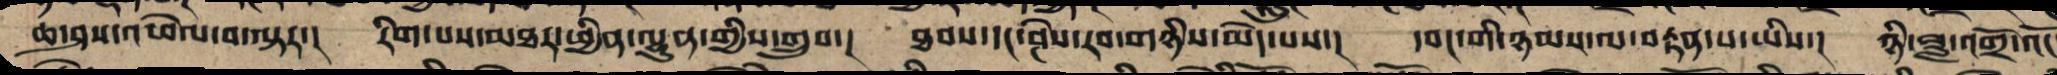ཆ་ཤས་འཕེལ་བ་ལྟར་། རིག་པས་མཐར་ཕྱིན་ལྷུན་གྱིས་གྲུབ་། ཐབས་དང་ཤེས་རབ་གཉིས་མེད་པས། དབང་གི་ཉམས་ལ་བརྟན་པ་ཡིས་། ཉི་ཟླ་འགྲོ་འོང
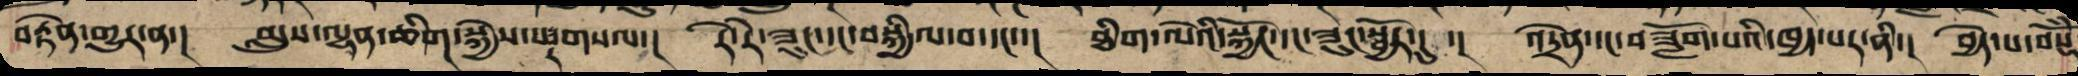བརྟེན་གྱུར་ན་། མླུས་ལྷན་ཅིག་སྐྱེས་པར་གསལ་། རེ་རེ་གཟུང་དང་བསྐྱིལ་བ་དང་་། ཐིག་ལེའི་སྐྱོང་དང་ཟུང་སྦྱོར་དུ་། འདྲེན་དང་བཟློག་པའི་ཁྱད་པར་ནི་། བྱེད་པ་བསྡོཾ
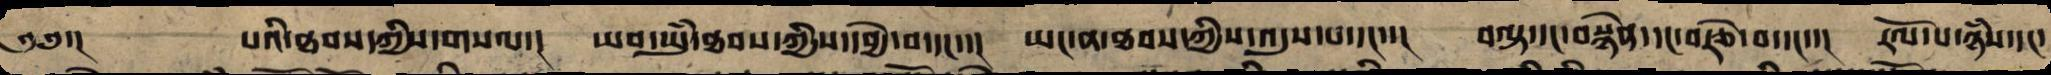༄༅། པའི་ཐབས་ཀྱིས་གསལ་། ཡབ་ཡུཾ་ཐབས་ཀྱི་དབྱེ་བ་དང་་། ཡང་ན་ཐབས་ཀྱིས་འདུས་པ་དང་་། བལྟ་དང་བསྙེན་དང་བརྩེ་བ་དང་་། རོལ་པ་ཉཾས་དང་
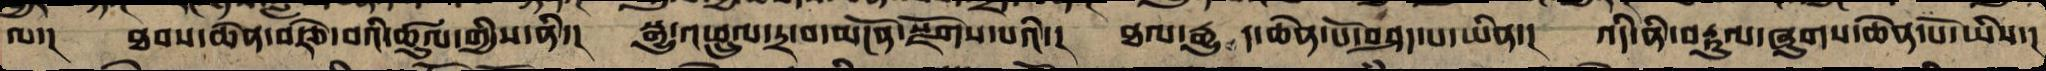ལ་། ཐབས་ཆེན་བརྩེ་བའི་ཚུལ་གྱིས་ནི་། སྒྱུ་འཕྲུལ་དྲ་བ་མངོན་སྫོགས་པའི་། ཐལ་རྒྱུད་ཆེན་པོ་བཤད་པ་ཡིས་། འདི་ནི་བརྟུལ་ཞུགས་ཆེན་པོ་ཡི་།
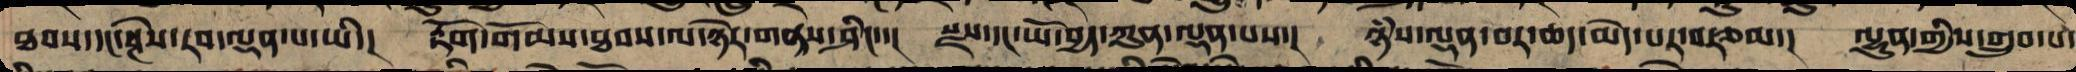ཐབས་དང་ཤེས་རབ་ལྡན་པ་ཡིས་། རྟོགས་གོམས་ཐབས་ལ་ཉེར་གནས་ཤིང་་། སྫས་དང་ཡོ་བྱད་ཀུན་ལྡན་པས་། ཉཾས་ལྡན་བར་ཆད་མེད་པར་བརྩམ་། ལྷུན་གྱིས་གྲུབ་པ་
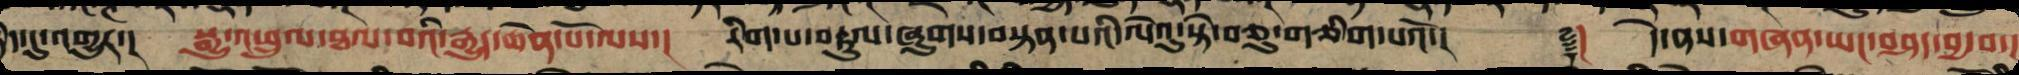ཉིད་དུ་འགྱུར་། སྒྱུ་འཕྲུལ་ཐལ་བའི་རྒྱུད་ཆེན་པོ་ལས་། རིག་པ་བརྟུལ་ཞུགས་བསྟན་པའི་ལེའུ་སྟེ་བཅུ་གཅིག་པའོ་།། ༈། དེ་ནས་གཞན་ཡང་བཤད་བྱ་བ་།
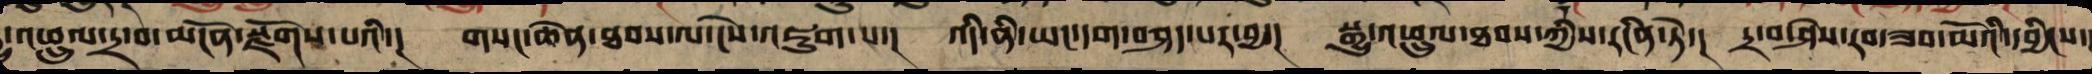སྒྱུ་འཕྲུལ་དྲ་བ་མངོན་སྫོགས་པའི་། གསང་ཆེན་ཐབས་ལ་ངེས་འཇུག་པ་། འདི་ནི་ཡང་དག་བཤད་པར་བྱ་། སྒྱུ་འཕྲུལ་ཐབས་ཀྱི་རངིན་ཏེ་། དྲ་བ་ཤེས་རབ་ཟབ་མོའི་དབྱིངས་
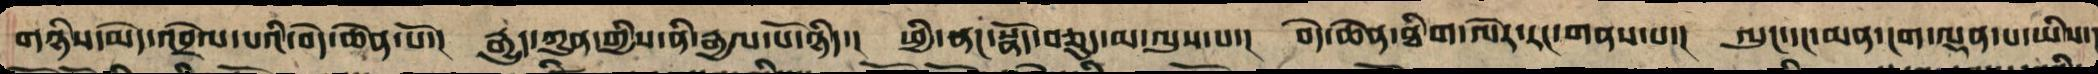གཉིས་མེད་འབྲེལ་བའི་བདེ་ཆེན་པོ་། རྒྱུད་ཀུན་གྱི་ནི་རྒྱལ་པོ་ཉིད་། ཕྱི་ནང་སྣོད་བཅུད་མ་ལུས་པ་། བདེ་ཆེན་ཐིག་ལེར་རང་གནས་པ་། ལུང་དང་མན་ངག་ལྡན་པ་ཡིས་
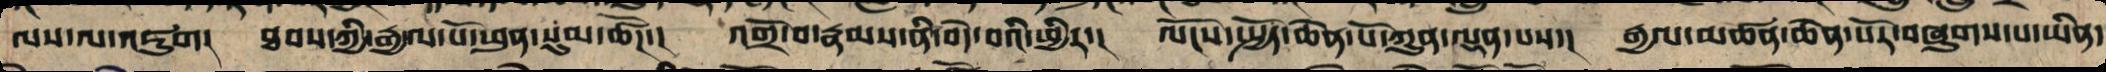ལས་ལ་འཇུག། ཐབས་ཀྱི་བདག་པོ་ཕུན་སུམ་ཚོཌ་། འགྲོ་བ་རྣམས་ནི་བདེ་བའི་ཕྱིར་། ལོངས་སྤྱོད་ཆེན་པོ་ཀུན་ལྡན་པས་། རྒྱལ་མཚན་ཆེན་པོར་བཞུགས་པ་ཡིན་
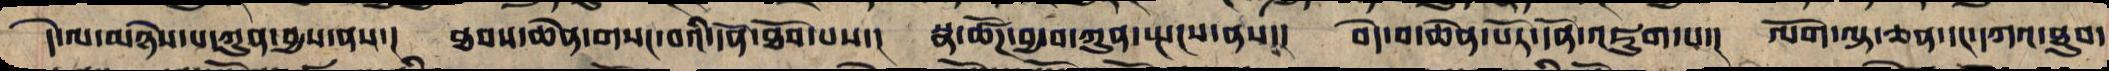དེ་ལ་མཉེས་པ་ཀུན་བྱས་ནས་། ཐབས་ཆེན་གསང་བའི་དོན་ཐོབ་པས་། སྣ་ཚོཌ་བྱ་བ་ཀུན་སྤངས་ནས་། བདེ་བ་ཆེན་པོར་དོན་འཇུག་པ་། ལོག་ལྟ་ཅན་དང་དཀའ་ཐུབ་
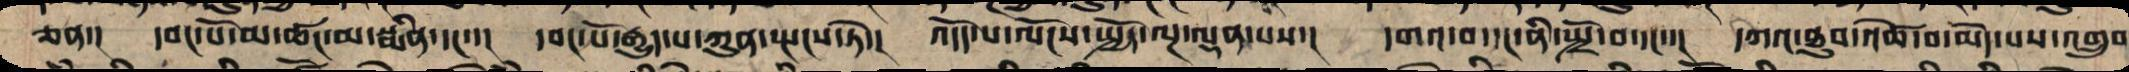ཅན་། དབང་པོ་མ་ཚང་མ་སྨིན་དང་་། དབང་པོ་རྒྱུད་པ་ཀུན་སྤངས་ཏེ་། འདོད་པ་ལོངས་སྤྱོད་ལྔ་ལྡན་པས་། དགའ་བ་དང་ནི་སྤྲོ་བ་དང་་། དཀའ་ཐུབ་འཚེ་བ་མེད་པས་འགྲུབ
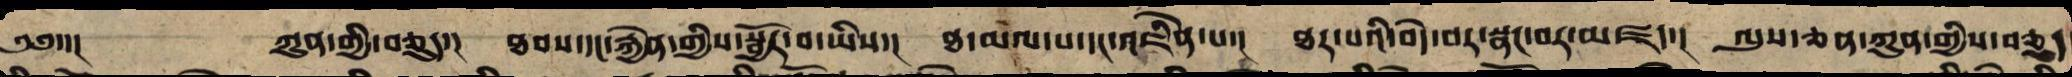༄༅་། ཀུན་གྱི་བཅུད་། ཐབས་དང་རྐྱེན་གྱི་སྦྱོར་བ་ཡིས་། ཐ་མལ་པ་དང་འཇིནེ་པ་། ཐར་པའི་བདེ་བར་སྣང་བར་མཛད་། ལུས་ཅན་ཀུན་གྱི་བཅུད་
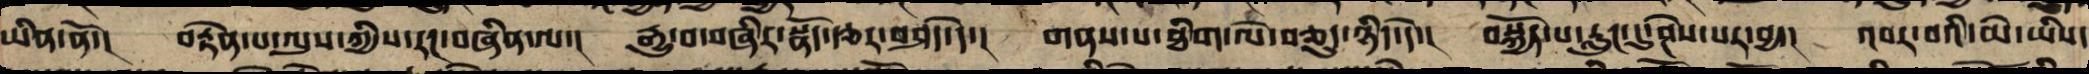ཡིན་ནོ་། བརྟེན་པ་ལུས་ཀྱི་རང་བཞིན་ལ་། རྒྱུ་བ་གཞིར་སྣོད་རྩར་བཤད་དེ་། གནས་པ་ཐིག་ལེ་བཅུད་ཉིད་དེ་། བསྐྱོད་པ་རླུང་དུ་ཤེས་པར་བྱ་། འབར་བའི་མེ་ཡིས་
